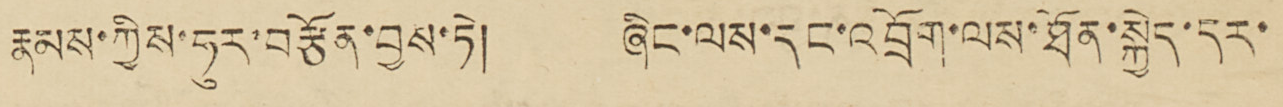རྣམས་ཀྱིས་ཧུར་བརྩོན་བྱས་ཏེ། ཞིང་ལས་དང་འབྲོག་ལས་ཐོན་སྐྱེད་དར་
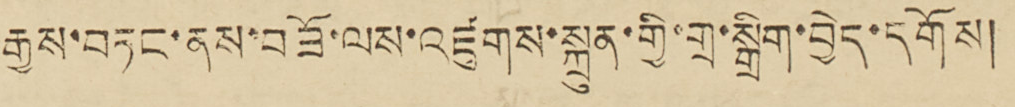རྒྱས་བཏང་ནས་བཟོ་ལས་འཛུགས་སྐྲུན་གྱི་གྲ་སྒྲིག་བྱེད་དགོས།
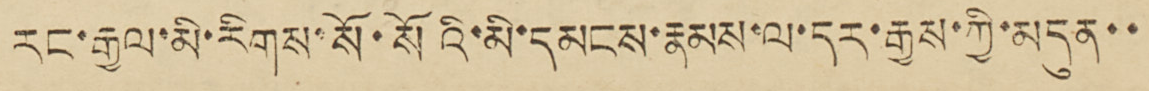རང་རྒྱལ་མི་རིགས་སོ་སོའི་མི་དམངས་རྣམས་ལ་དར་རྒྱས་ཀྱི་མདུན་་
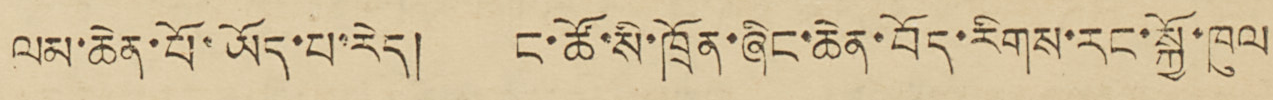ལམ་ཆེན་པོ་ཡོད་པ་རེད། ང་ཚོ་སི་ཁྲོན་ཞིང་ཆེན་བོད་རིགས་རང་སྐྱོ་ཁུལ
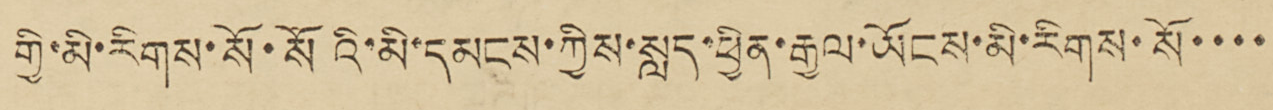གྱི་མི་རིགས་སོ་སོའི་མི་དམངས་ཀྱིས་སླད་ཕྱིན་རྒྱལ་ཡོངས་མི་རིགས་སོ་་་་
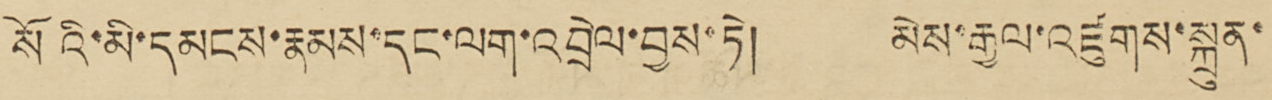སོའི་མི་དམངས་རྣམས་དང་ལག་འབྲེལ་བྱས་ཏེ། མེས་རྒྱལ་འཛུགས་སྐྲུན་
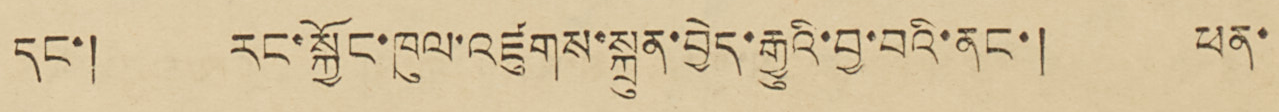དང་། རང་སྐྱོང་ཁུལ་འཛུགས་སྐྲུན་བྱེད་རྒྱུའི་བྱ་བའི་ནང་། ཕན་
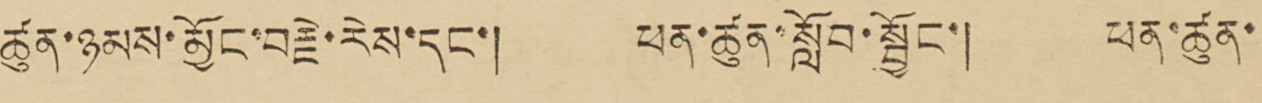ཚུན་ཉམས་མྱོང་བརྗེ་རེས་དང་། ཕན་ཚུན་སློབ་སྦྱོང་། ཕན་ཚུན་
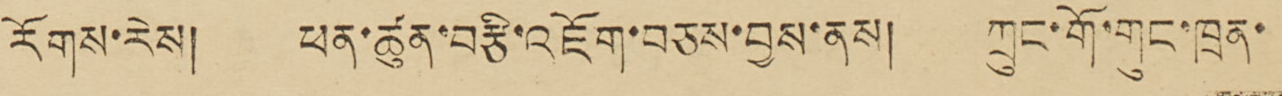རོགས་རེས། ཕན་ཚུན་བརྩི་འཇོག་བཅས་བྱས་ནས། ཀྲུང་གོ་གུང་ཁྲན་
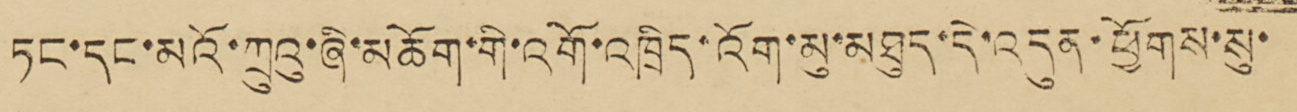ཏང་དང་མའོ་ཀྲུའུ་ཞི་མཆོག་གི་འགོ་འཁྲིད་འོག་མུ་མཐུད་དེ་འདུན་ཕྱོགས་སུ་
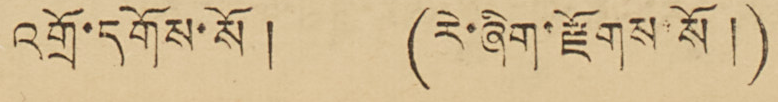འགྲོ་དགོས་སོ ། (རེ་ཞིག་རྫོགས་སོ །)
